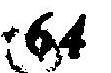64
